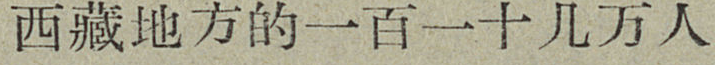西藏地方的一百一十几万人
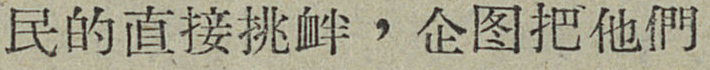民的直接挑衅，企图把他們
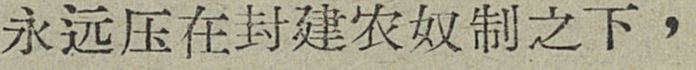永远压在封建农奴制之下，
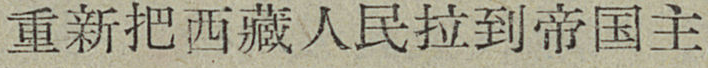重新把西藏人民拉到帝国主
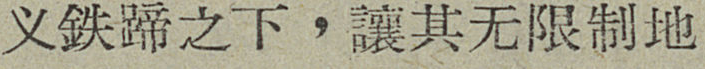义鉄蹄之下，讓其无限制地
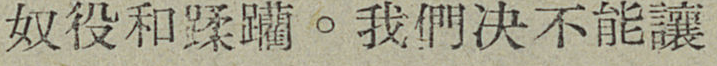奴役和蹂躪。我們决不能讓
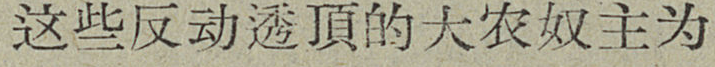这些反动透頂的大农奴主为
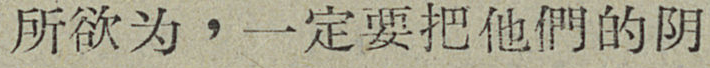所欲为，一定要把他們的阴
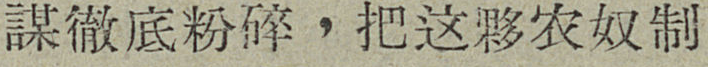謀徹底粉碎，把这夥农奴制
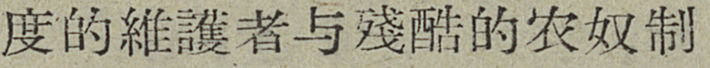度的維護者与殘酷的农奴制
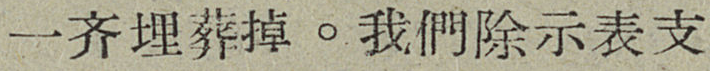一齐埋葬掉。我們除示表支
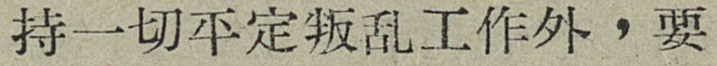持一切平定叛乱工作外，要
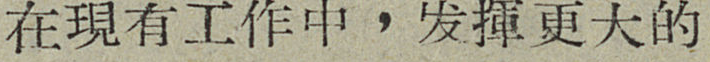在現有工作中，发揮更大的
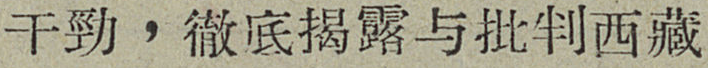干勁，徹底揭露与批判西藏
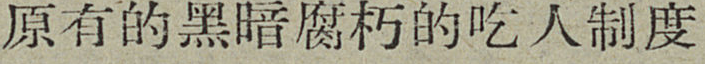原有的黑暗腐朽的吃人制度
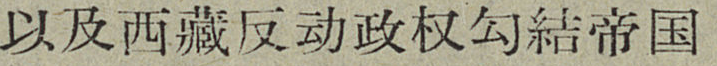以及西藏反动政权勾結帝国
